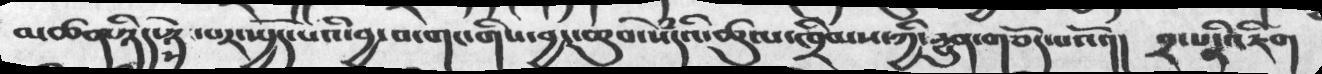མཚན་ཉིད་ཉེས་པར་སྤྱོད་པའི་བྱ་བ་གང་གིས་བྱང་ཆུབ་སེཾདའི་ཚུལ་ཁྲིམས་ཀྱི་དྱུན་གཅོད་པའོ་།།   ༢་པའི་འཇིག
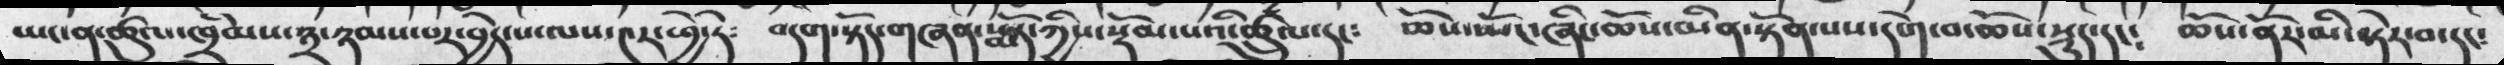ཡང་ན་ཚུལ་ཁྲིམས་༣་ཉམས་པར་བྱེད་པ་ལ་ས་༤ར་ཕྱེ་ཏེ༴     བདག་སྟོད་གཞན་སྨོད་ཀྱིས་སྡོམ་པའི་ཚུལ་དང༴    ཆོས་སྤོང་ཞིང་ཆོས་མིན་སྟོན་པས་དགེ་བ་ཆོས་སྡུད་དང༴  ཆོས་ནོར་མི་སྟེར་བ་དང༴
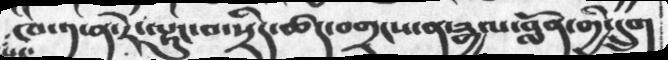པ་ཁ་༡་ན་རེ་ལྟུང་བ་སྲིད་ཚད་བགྲངས་ན་རྒྱལ་བློན་གྱི་དྲུག
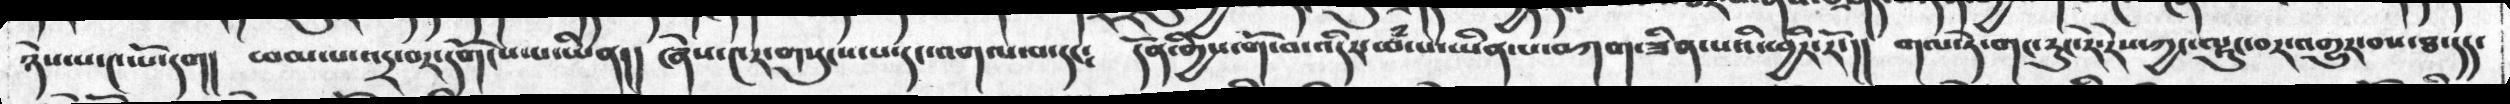ཉེས་པ་༤་པོ་དག།   ཕམ་པ་འདྲ་བར་དགོངས་པ་ཡིན།།  ཞེས་༤ར་གསུངས་པ་དང་འགལ་བ་དང༴   དོན་གྱིས་གོ་བ་འདིར་ཕཾ་པ་ཡིན་པ་བཀག་ཟིན་པའི་ཕྱིར་རོ་།།   གལ་ཏེ་གང་རུང་རེ་རེས་ཀྱང་ལྟུང་བར་འགྱུར་བས་ཐ་དད་
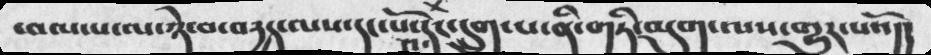ཕམ་པ་ལ་ཉེ་བ་བདྱད་ལས་དང་པོ་༤་དང་དྲུག་པ་ནི་གཏི་མུག་ལས་གྱུར་པའོ།།
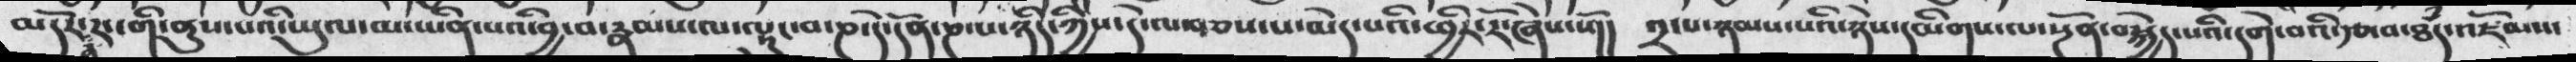མདོར་ན་རང་གི་ནུས་པའི་ཡུལ་མ་ཡིན་པའི་བྱ་བ་རྣམས་ལ་ལྟུང་བ་ཎ་དེ་དོན་ཎ་པ་ཉིད་ཀྱིས་དེ་ལས་བཅས་པ་མེད་པའི་ཕྱིར་རོ་ཞེས་སོ།།  ༢་པ་ཉམས་པའི་ཉེས་དམིགས་ལ་སྔོན་བསྐྱེད་པའི་དགེ་བའི་རྩ་བ་ཐཾད་འཇོམས་
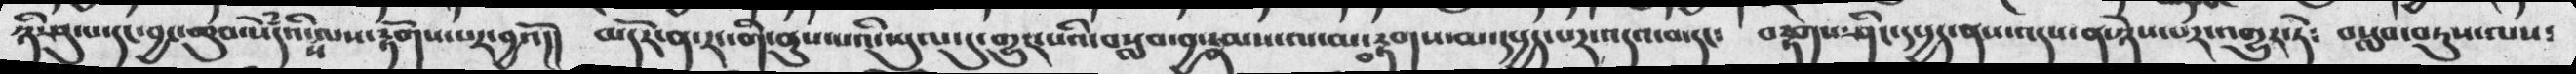ཉི་ཤུ་པ་དང་བྱང་ཆུབ་སེཾདའི་ས་ལས་རྟོགས་པར་བྱའོ།།  མདོར་ན་རང་གི་ནུས་པའི་ཡུལ་དུ་གྱུར་པའི་བསླབ་བྱ་རྣམས་ལ་མ་བརྟགས་མ་དཔྱད་པར་འདའ་བ་དང༴    བརྟགས་ཤིང་དཔྱད་ནས་འདས་ན་ཉེས་པར་འགྱུར་ཏེ༴    བསླབ་བཏུས་ལས༴
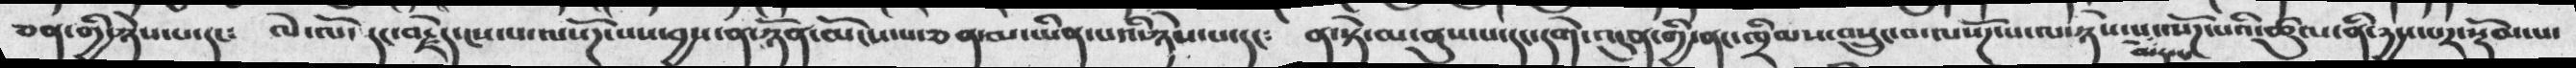ཅན་གྱི་ཉེས་པ་དང༴  ལེ་ལོ་དང་བརྗེད་ངས་པ་ལསོཌ་པས་བྱས་ན་ཉོན་མོངས་པ་ཅན་མ་ཡིན་པའི་ཉེས་པ་དང༴    ན་སྟེ་མ་ནུས་པ་དང་དགེ་འདུན་གྱི་ནང་ཁྲིམས་བསྲུང་བ་ལསོཌ་པ་ལ་ཉེས་པ་མེད་པ་ལསོཌ་པའི་ཚུལ་ནི་དྱས་པར་སྡོམ་པ་
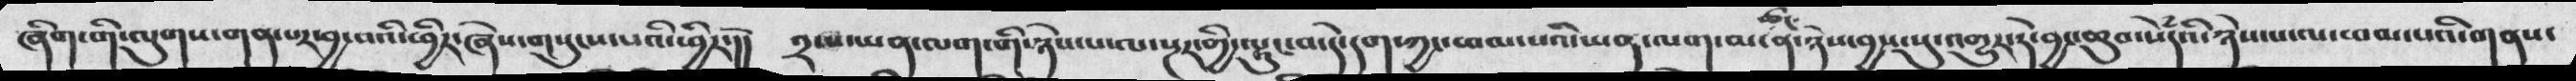ཞིག་གི་ལུགས་གན་པར་བྱ་བའི་ཕྱིར་ཞེས་གསུངས་པའི་ཕྱིར་།།    ༢་པ་ཡན་ལག་གི་ཉེས་པ་སྔར་གྱི་ལྟུང་བ་དེ་དག་ཀྱང་ཕམ་པའི་ཡན་ལག་མ་ཚང་ན་ཉེས་བྱས་སུ་འགྱུར་ཏེ་བྱང་ཆུབ་སེཾདའི་ཉེས་པ་ལ་ཕམ་པའི་གནས་
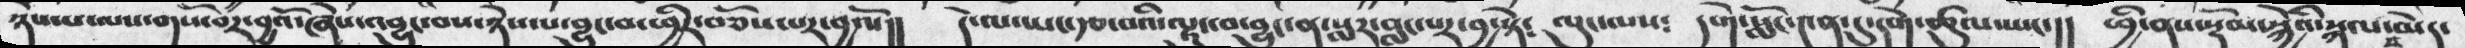ཉེས་པ་ལས་གསོ་བར་བྱའོ་ཞེས་འབྱུང་བས་ཉེས་པ་བྱུང་བ་ཕྱིར་བཅོས་པར་བྱའོ་།།   དེ་ལ་ཡང་རྩ་བའི་ལྟུང་བ་བྱུང་ན་སླར་བླང་པར་བྱ་སྟེ༴  ལུང་ལས༴   དགེ་སློང་༤ན་དུ་དགེ་ཚུལ་ཡང་།།   ཕྱི་ནས་སྡོམ་སྐྱེའི་སྐལ་བ་མེད་
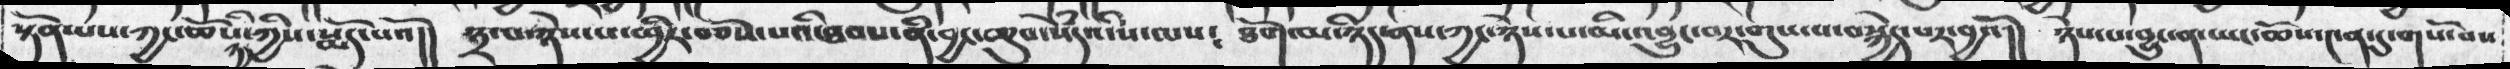སྟོན་པས་ཀྱང་ཆོས་ཉིད་ཀྱིས་སྨོད་པའོ།།  ༣་པ་ཉེས་པ་ཕྱིར་བཅོས་པའི་ཐབས་ནི་བྱང་ཆུབ་སེཾདའི་ས་ལས༴  ཐོག་མ་ཉིད་ནས་ཀྱང་ཉེས་པ་མི་འབྱུང་བར་གུས་པ་བསྐྱེད་པར་བྱའོ།།  ཉེས་པ་བྱུང་ན་ཡང་ཆོས་༤ན་དུ་གསོ་བས
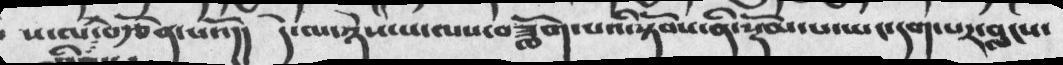ས་ལ་བརྩོན་པའོ།།  དེ་ལ་ཉེས་པ་ལས་བཟློག་པའི་སྟོབས་ནི་སྡོམ་པ་ཡང་དག་པར་བླངས་
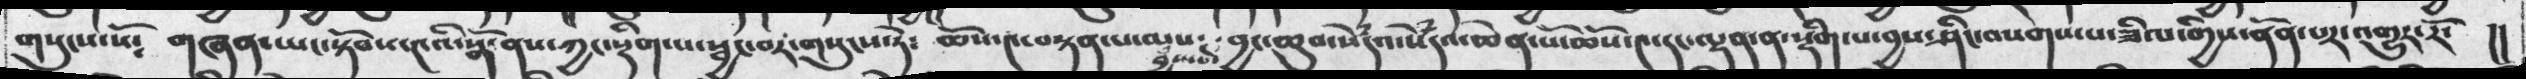གསུངས་སོ༴   གཞན་ཡང་སྟོབས་༤འི་སྒོ་ནས་ཀྱང་སྡིག་པ་སྦྱང་པར་གསུངས་ཏེ༴  ཆོས་༤་བསྟན་པ་ལས་བྱམས་པ་བྱང་ཆུབ་སེཾདའ་ཆེན་པོ་ཆོས་༤་དང་ལྡན་ན་སྡིག་པ་བྱས་ཤིད་བསགས་པ་ཟིལ་གྱིས་ནོན་པར་འགྱུར་རོ་ །།
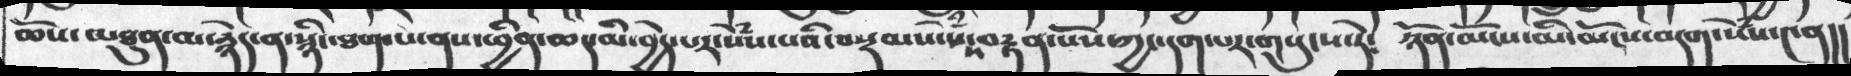ཆོས་མཐུན་མ་རྙེད་ན་སྙིང་ཐག་པ་ནས་ཕྱིན་ཆད་མི་བྱེད་པར་སེཾས་པའི་བསྡམས་པས་བརྟན་པོས་ཀྱང་དག་པར་གསུངས་ཏེ༴  ཉོན་མོངས་མི་མོངས་བདག་སེཾས་༤ན།།
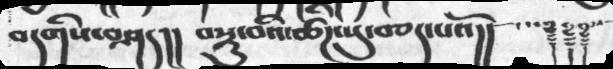བདགིས་བཤད།།    བསྟུ་བའི་ཚིཌ་སུ་བཅད་པའོ།།    ࿑࿑࿑
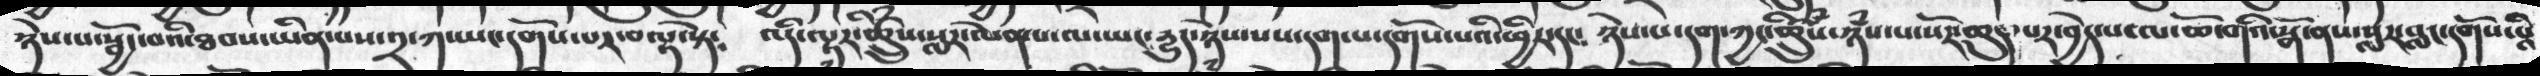ཉེས་པ་སྦྱོང་བའི་ཐབས་ཡིན་པས་༢་ཀ་ཡང་དགོས་པར་བལྟ་སྟེ༴   འདི་ལྟར་ཚྲིུཾས་སླར་ལེན་པ་ལ་ཡང་དྱུད་ཉེས་པས་དག་པ་དགོས་པའི་ཕྱིར་དང༴   ཉེས་པ་དག་ཚྲིུཾས་ཉཾས་པ་སོར་ཆུད་པར་བྱེད་པ་ལ་ཆོ་གའི་སྒོ་ནས་སླར་བླང་དགོས་པའི
